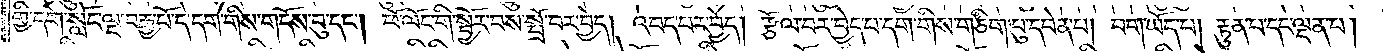གྱི་དགེ་སློང་ལྔ་བརྒྱ་པོ་དེ་དག་གིས་གདོས་བུ་དང༌། ཕོ་ལོང་གི་སྦྱོར་བས་སྤྲོ་བར་བྱེད། འབད་པར་བྱེད། རྩོལ་བར་བྱེད་པ་དག་གིས་གཅིག་པུ་དབེན་པ། བག་ཡོད་པ། རྟུན་པ་དང་ལྡན་པ།
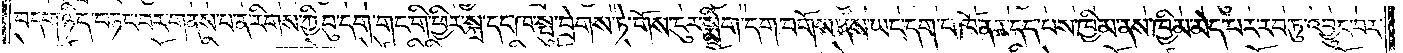བདག་ཉིད་བཏང་བར་གནས་པ་ན་རིགས་ཀྱི་བུ་དག་གང་གི་ཕྱིར་སྐྲ་དང་ཁ་སྤུ་བྲེགས་ཏེ་གོས་ངུར་སྨྲིག་དག་བགོས་ནས་ཡང་དག་པ་ཁོ་ནར་དད་པས་ཁྱིམ་ནས་ཁྱིམ་མེད་པར་རབ་ཏུ་འབྱུང་བར་
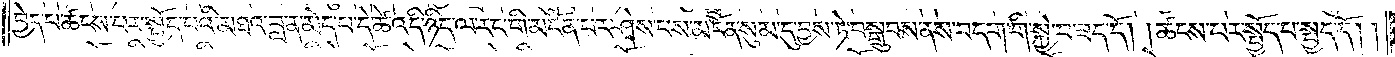བྱེད་པ་ཚངས་པར་སྤྱོད་པའི་མཐའ་བླ་ན་མེད་པ་དེ་ཚེ་འདི་ཉིད་ལ་རང་གི་མངོན་པར་ཤེས་པས་མངོན་སུམ་དུ་བྱས་ཏེ་བསྒྲུབས་ནས་བདག་གི་སྐྱེ་བ་ཟད་དོ། །ཚངས་པར་སྤྱོད་པ་སྤྱད་དོ། །
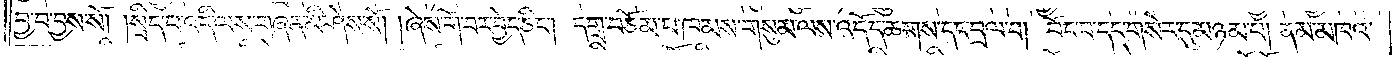བྱ་བ་བྱས་སོ། །སྲིད་པ་འདི་ལས་གཞན་མི་ཤེས་སོ། །ཞེས་གོ་བར་བྱེད་ཅིང༌། དགྲ་བཅོམ་པ་ཁམས་གསུམ་ལས་འདོད་ཆགས་དང་བྲལ་བ། བོང་བ་དང་གསེར་དུ་མཉམ་པ། ནམ་མཁའ་
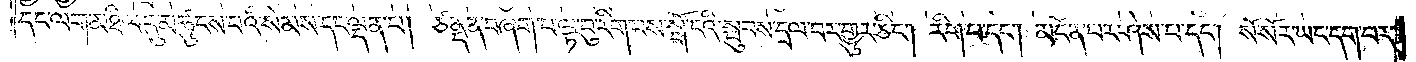དང་ལག་མཐིལ་དུ་མཚུངས་པའི་སེམས་དང་ལྡན་པ། ཙནྡན་བཞག་པ་ལྟ་བུ་རིག་པས་སྒོ་ངའི་སྤུབས་དྲལ་བར་གྱུར་ཅིང༌། རིག་པ་དང༌། མངོན་པར་ཤེས་པ་དང༌། སོ་སོར་ཡང་དག་པར་
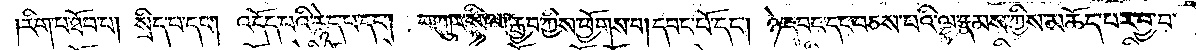རིག་པ་ཐོབ་པ། སྲིད་པ་དང༌། འདོད་པའི་རྙེད་པ་དང༌། བཀུར་སྟི་ལ་རྒྱབ་ཀྱིས་ཕྱོགས་པ། དབང་པོ་དང༌། ཉེ་དབང་དང་བཅས་པའི་ལྷ་རྣམས་ཀྱིས་མཆོད་པར་བྱ་བ་
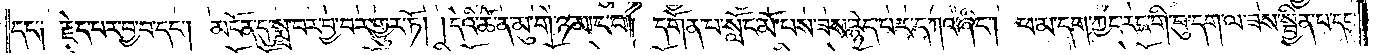དང༌། རྗེད་པར་བྱ་བ་དང༌། མངོན་དུ་སྨྲ་བར་བྱ་བར་གྱུར་ཏོ། །དེའི་ཚེ་ན་མུ་གེ་ཉམ་ང་བ། དགོན་པ་སློང་མོ་པས་ཟས་རྙེད་པར་དཀའ་ཞིང༌། ཕ་མ་དག་ཀྱང་རང་གི་བུ་དག་ལ་ཟས་སྦྱིན་པ་དང་
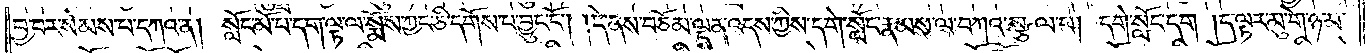བྱ་བར་སེམས་པ་དཀའ་ན། སློང་མོ་པ་དག་ལྟ་ལ་སྨོས་ཀྱང་ཅི་དགོས་པ་བྱུང་ངོ༌། །དེ་ནས་བཅོམ་ལྡན་འདས་ཀྱིས་དགེ་སློང་རྣམས་ལ་བཀའ་སྩལ་པ། དགེ་སློང་དག །ད་ལྟར་མུ་གེ་ཉམ་
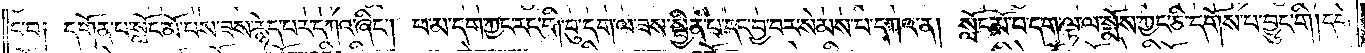ང་བ། དགོན་པ་སློང་མོ་བས་ཟས་རྙེད་པར་དཀའ་ཞིང༌། ཕ་མ་དག་ཀྱང་རང་གི་བུ་དག་ལ་ཟས་སྦྱིན་པ་དང་བྱ་བར་སེམས་པ་དཀའ་ན། སློང་མོ་པ་དག་ལྟ་ལ་སྨོས་ཀྱང་ཅི་དགོས་པ་བྱུང་གི།དགེ་
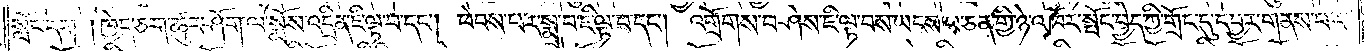སློང་དག །ཁྱེད་ཅག་ཚུར་ཤོག་ལ་སྨོས་འདྲིན་ཇི་ལྟ་བ་དང༌། ཕེབས་པར་སྨྲ་བ་ཇི་ལྟ་བ་དང༌། འགྲོགས་བཤེས་ཇི་ལྟ་བས་ཡངས་པ་ཅན་གྱི་ཉེ་འཁོར་སྤོང་བྱེད་ཀྱི་གྲོང་དུ་དབྱར་གནས་པར་
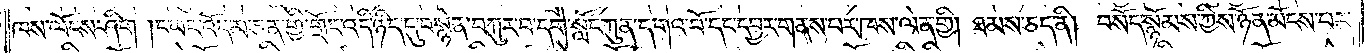ཁས་ལོངས་ཤིག །ང་ཡང་འོད་མ་ཅན་གྱི་གྲོང་འདི་ཉིད་དུ་བསྙེན་བཀུར་བ་དགེ་སློང་ཀུན་དགའ་བོ་དང་དབྱར་གནས་པར་ཁས་ལེན་གྱི། ཐམས་ཅད་ནི། བསོད་སྙོམས་ཀྱིས་ཉོན་མོངས་པར་
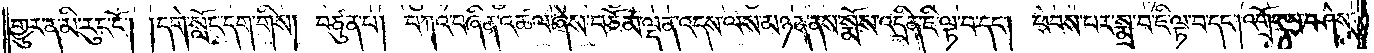གྱུར་ན་མི་རུང་ངོ༌། །དགེ་སློང་དག་གིས། བཙུན་པ། བཀའ་བཞིན་འཚལ་ཞེས་བཅོམ་ལྡན་འདས་ལས་མཉན་ནས་སྨོས་འདྲིན་ཇི་ལྟ་བ་དང༌། ཕེབས་པར་སྨྲ་བ་ཇི་ལྟ་བ་དང༌། འགྲོགས་བཤེས་
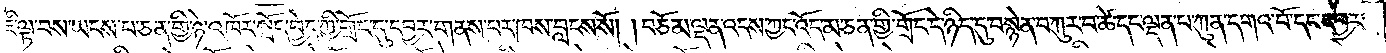ཇི་ལྟ་བས་ཡངས་པ་ཅན་གྱི་ཉེ་འཁོར་སྤོང་བྱེད་ཀྱི་གྲོང་དུ་དབྱར་གནས་པར་ཁས་བླངས་སོ། །བཅོམ་ལྡན་འདས་ཀྱང་འོད་མ་ཅན་གྱི་གྲོང་དེ་ཉིད་དུ་བསྙེན་བཀུར་བ་ཚེ་དང་ལྡན་པ་ཀུན་དགའ་བོ་དང་དབྱར་
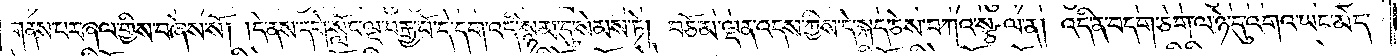གནས་པར་ཞལ་གྱིས་བཞེས་སོ། །དེ་ནས་དགེ་སློང་ལྔ་བརྒྱ་པོ་དེ་དག་འདི་སྙམ་དུ་སེམས་ཏེ། བཅོམ་ལྡན་འདས་ཀྱིས་དེ་སྐད་ཅེས་བཀའ་སྩལ་ན། འདི་ན་བདག་ཅག་ལ་ཉེ་དུ་འགའ་ཡང་མེད་
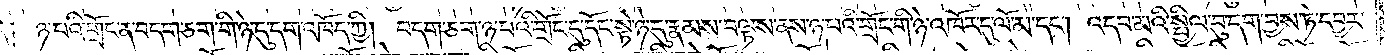དེ༑ ཉ་པའི་གྲོང་ན་བདག་ཅག་གི་ཉེ་དུ་དག་འཁོད་ཀྱི། བདག་ཅག་ཉ་པའི་གྲོང་དུ་དོང་སྟེ་ཉེ་དུ་རྣམས་བལྟས་ནས་ཉ་པའི་གྲོང་གི་ཉེ་འཁོར་དུ་ལོ་མ་དང༌། འདབ་མའི་སྤྱིལ་བུ་དག་བྱས་ཏེ་དབྱར་
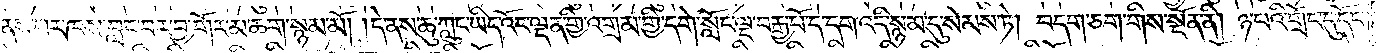གནས་པར་ཁས་བླང་བར་བྱ་གོར་མ་ཆག་སྙམ་མོ། །དེ་ནས་ཆུ་ཀླུང་ཡིད་འོང་ལྡན་གྱི་འགྲམ་གྱི་དགེ་སློང་ལྔ་བརྒྱ་པོ་དེ་དག་འདི་སྙམ་དུ་སེམས་ཏེ། བདག་ཅག་གིས་སྔོན་ནི། ཉ་པའི་གྲོང་དུ་དོང་
